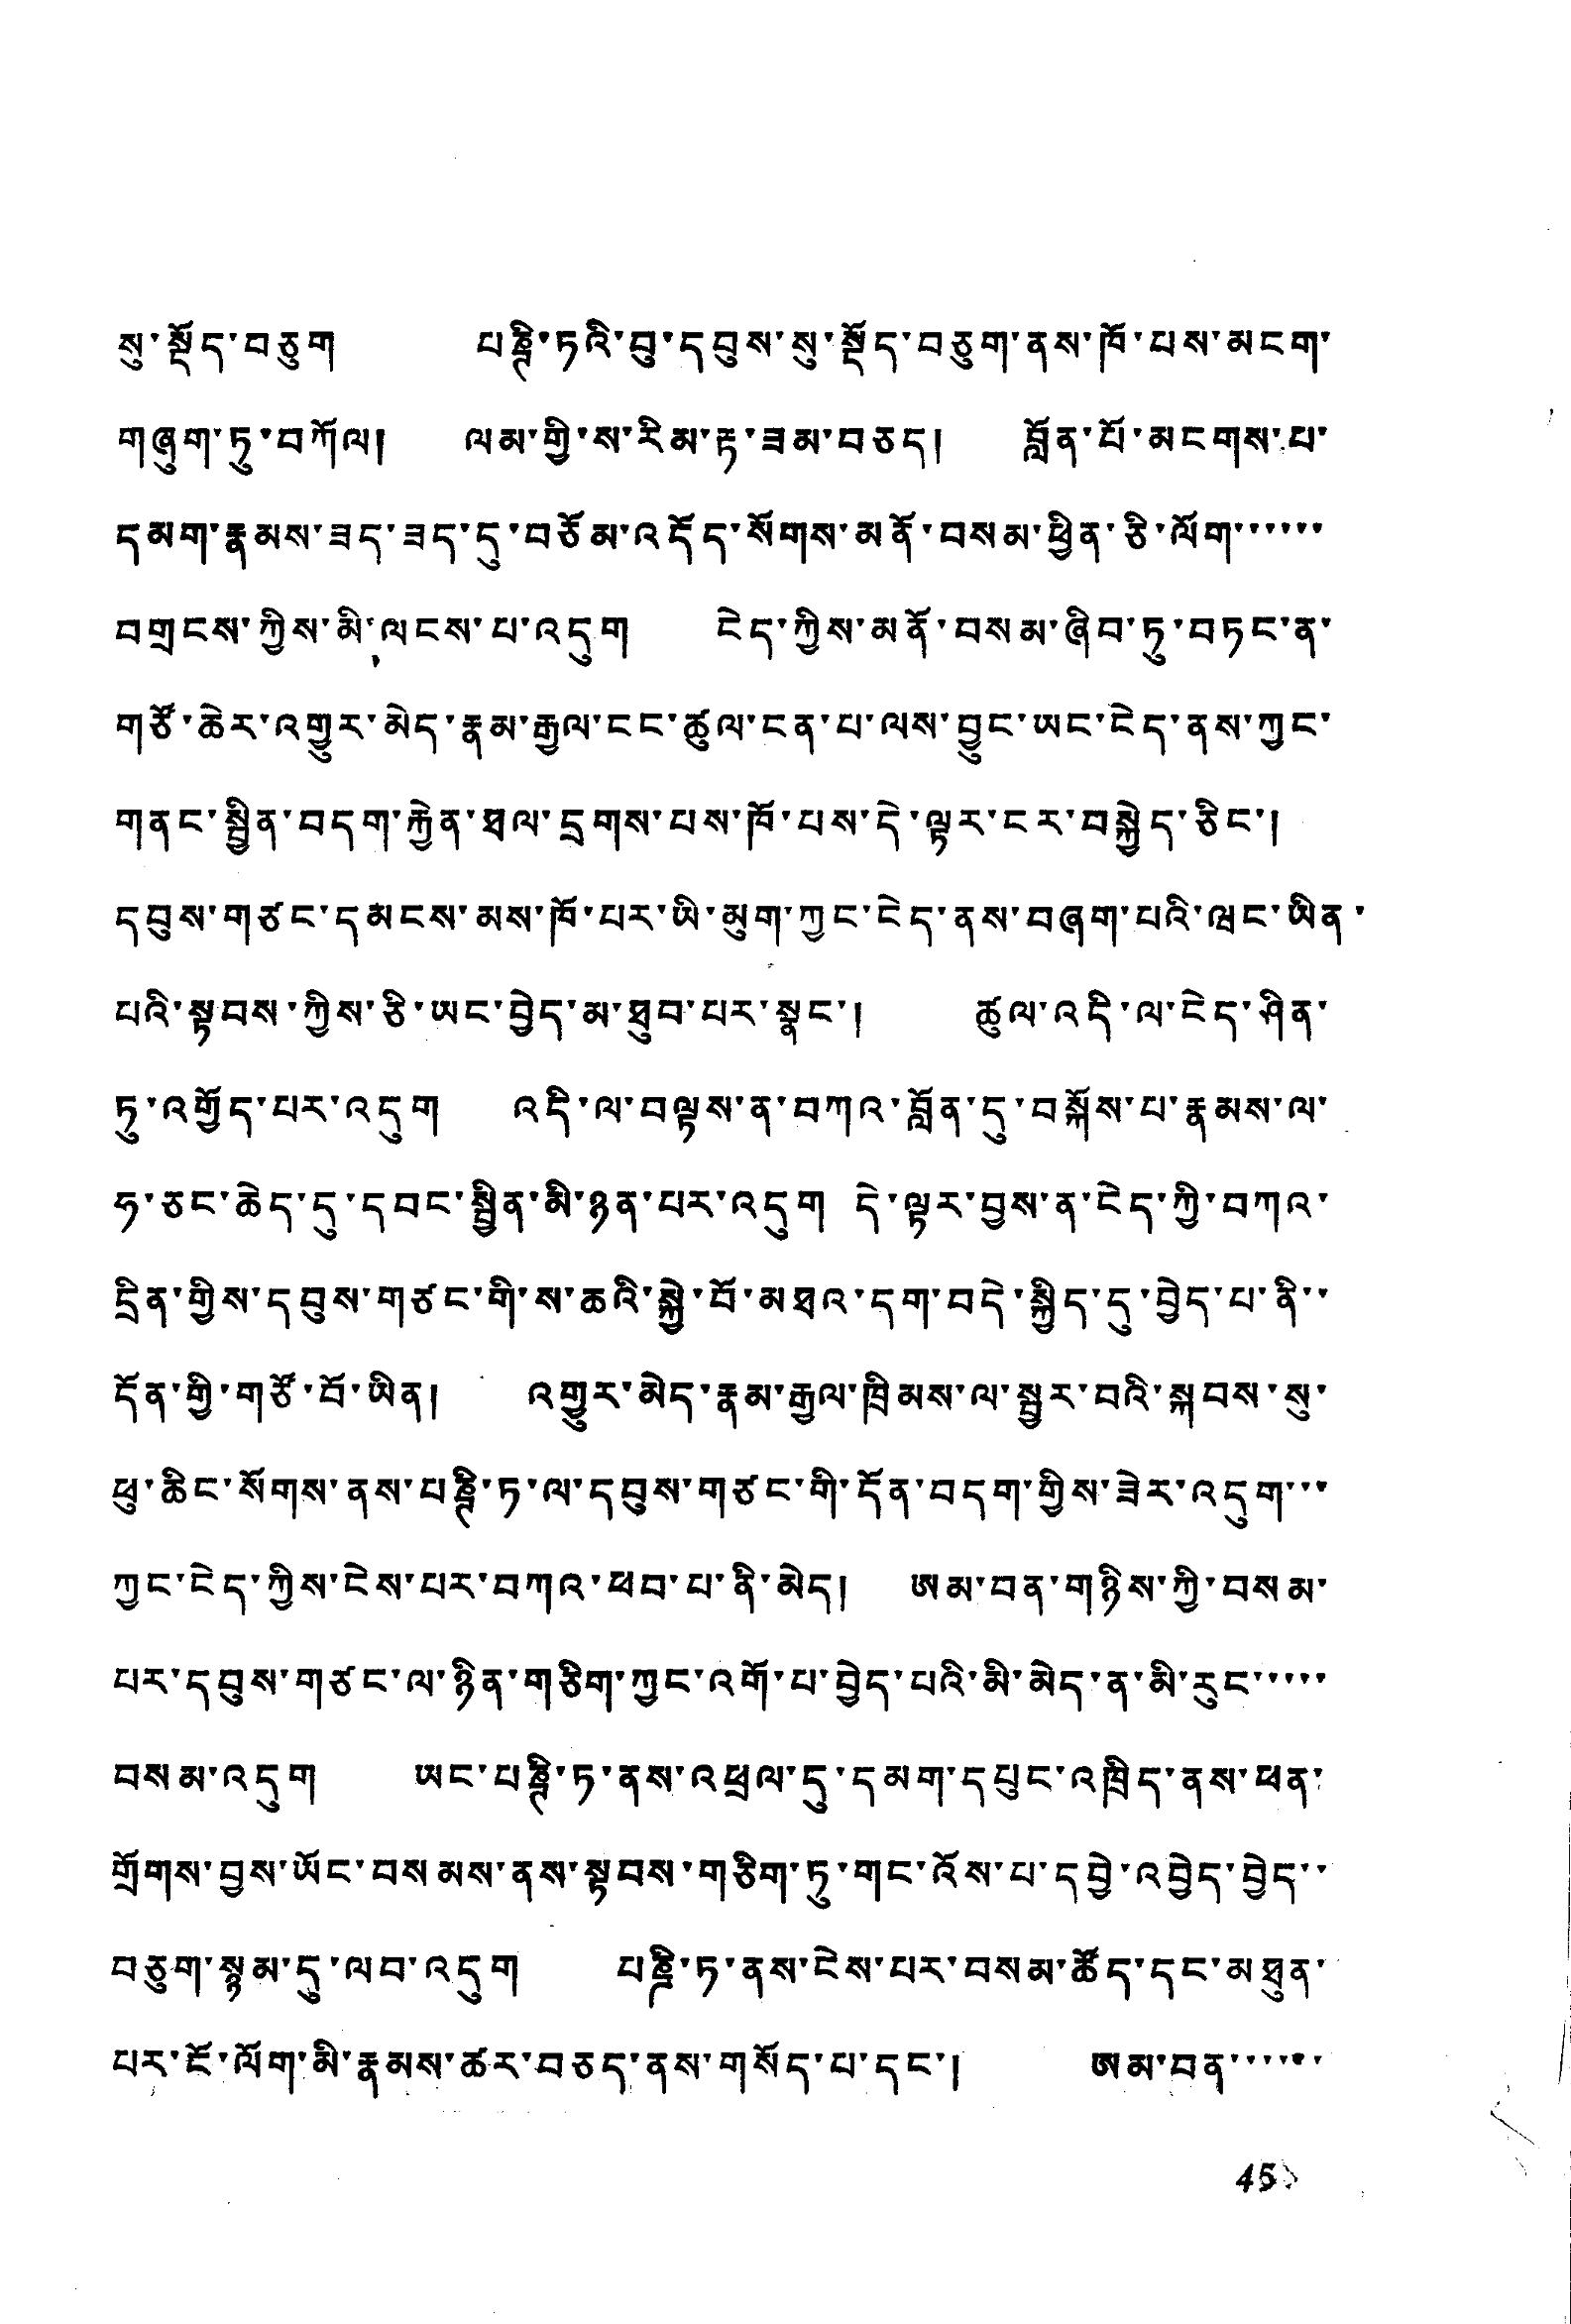སུ་སྡོད་བཅུག པཎྚི་ཏའི་བུ་དབུས་སུ་སྡོད་བཅུག་ནས་ཁོ་པས་མངག་
གཞུག་ཏུ་བཀོལ། ལམ་གྱི་ས་རིམ་རྟ་ཟམ་བཅད། བློན་པོ་མངགས་པ་
དམག་རྣམས་ཟད་ཟད་དུ་བཅོམ་འདོད་སོགས་མནོ་བསམ་ཕྱིན་ཅི་ལོག་་་་་་
བགྲངས་ཀྱིས་མི་ལངས་པ་འདུག ངེད་ཀྱིས་མནོ་བསམ་ཞིབ་ཏུ་བཏང་ན་
གཙོ་ཆེར་འགྱུར་མེད་རྣམ་རྒྱལ་ངང་ཚུལ་ངན་པ་ལས་བྱུང་ཡང་ངེད་ནས་ཀྱང་
གནང་སྦྱིན་བདག་རྐྱེན་ཐལ་དྲགས་པས་ཁོ་པས་དེ་ལྟར་ངར་བསྐྱེད་ཅིང་།
དབུས་གཙང་དམངས་མས་ཁོ་པར་ཡི་མུག་ཀྱང་ངེད་ནས་བཞག་པའི་ཝང་ཡིན་
པའི་སྟབས་ཀྱིས་ཅི་ཡང་བྱེད་མ་ཐུབ་པར་སྣང་། ཚུལ་འདི་ལ་ངེད་ཤིན་
ཏུ་འགྱོད་པར་འདུག་།་འདི་ལ་བལྟས་ན་བཀའ་བློན་དུ་བསྐོས་པ་རྣམས་ལ་
ཧ་ཅང་ཆེད་དུ་དབང་སྦྱིན་མི་ཉན་པར་འདུག་དེ་ལྟར་བྱས་ན་ངེད་ཀྱི་བཀའ་
དྲིན་གྱིས་དབུས་གཙང་གི་ས་ཆའི་སྐྱེ་བོ་མཐའ་དག་བདེ་སྐྱིད་དུ་བྱེད་པ་ནི་་
དོན་གྱི་གཙོ་བོ་ཡིན། འགྱུར་མེད་རྣམ་རྒྱལ་ཁྲིམས་ལ་སྦྱར་བའི་སྐབས་སུ་
ཕུ་ཆིང་སོགས་ནས་པཎྚི་ཏ་ལ་དབུས་གཙང་གི་དོན་བདག་གྱིས་ཟེར་འདུག་་་
ཀྱང་ངེད་ཀྱིས་ངེས་པར་བཀའ་ཕབ་པ་ནི་མེད། ཨམ་བན་གཉིས་ཀྱི་བསམ་
པར་དབུས་གཙང་ལ་ཉིན་གཅིག་ཀྱང་འགོ་པ་བྱེད་པའི་མི་མེད་ན་མི་རུང་་་་་
བསམ་འདུག ཡང་པཎྚི་ཏ་ནས་འཕྲལ་དུ་དམག་དཔུང་འཁྲིད་ནས་ཕན་
གྲོགས་བྱས་ཡོང་བསམས་ནས་སྟབས་གཅིག་ཏུ་གང་འོས་པ་དབྱེ་འབྱེད་བྱེད་
བཅུག་སྙམ་དུ་ལབ་འདུག པཎྚི་ཏ་ནས་ངེས་པར་བསམ་ཚོད་དང་མཐུན་
པར་ངོ་ལོག་མི་རྣམས་ཚར་བཅད་ནས་གསོད་པ་དང་། ཨམ་བན་་་་་་
45
